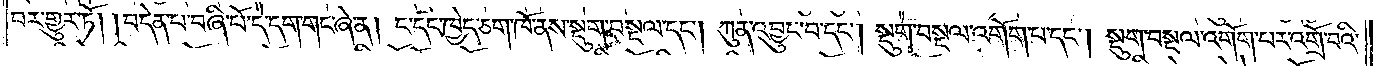བར་གྱུར་ཏོ། །བདེན་པ་བཞི་པོ་དེ་དག་གང་ཞེ་ན། ང་དང་ཁྱེད་ཅག་ཁོ་ནས་སྡུག་བསྔལ་དང༌། ཀུན་འབྱུང་བ་དང༌། སྡུག་བསྔལ་འགོག་པ་དང༌། སྡུག་བསྔལ་འགོག་པར་འགྲོ་བའི་
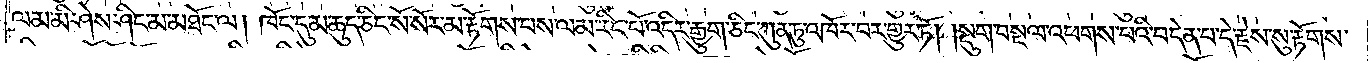ལམ་མི་ཤེས་ཤིང་མ་མཐོང་ལ། ཁོང་དུ་མ་ཆུད་ཅིང་སོ་སོར་མ་རྟོགས་པས་ལམ་རིང་པོ་འདིར་རྒྱུག་ཅིང་ཀུན་ཏུ་འཁོར་བར་གྱུར་ཏོ། །སྡུག་བསྔལ་འཕགས་པའི་བདེན་པ་དེ་རྗེས་སུ་རྟོགས་
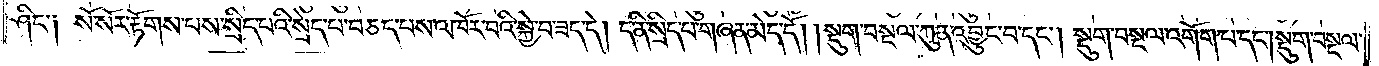ཤིང༌། སོ་སོར་རྟོགས་པས་སྲིད་པའི་སྲེད་པ་བཅད་པས་འཁོར་བའི་སྐྱེ་བ་ཟད་དེ། ད་ནི་སྲིད་པ་གཞན་མེད་དོ། །སྡུག་བསྔལ་ཀུན་འབྱུང་བ་དང༌། སྡུག་བསྔལ་འགོག་པ་དང༌། སྡུག་བསྔལ་
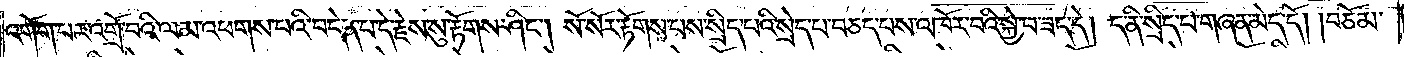འགོག་པར་འགྲོ་བའི་ལམ་འཕགས་པའི་བདེན་པ་དེ་རྗེས་སུ་རྟོགས་ཤིང༌། སོ་སོར་རྟོགས་པས་སྲིད་པའི་སྲེད་པ་བཅད་པས་འཁོར་བའི་སྐྱེ་བ་ཟད་དེ། ད་ནི་སྲིད་པ་གཞན་མེད་དོ། །བཅོམ་
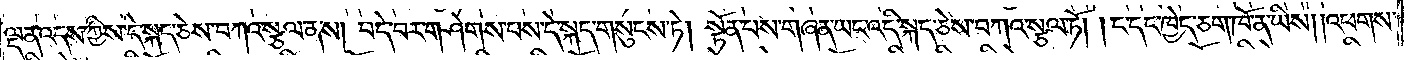ལྡན་འདས་ཀྱིས་དེ་སྐད་ཅེས་བཀའ་སྩལ་ནས། བདེ་བར་གཤེགས་པས་དེ་སྐད་གསུངས་ཏེ། སྟོན་པས་གཞན་ཡང་འདི་སྐད་ཅེས་བཀའ་སྩལ་ཏོ། །ང་དང་ཁྱེད་ཅག་ཁོ་ན་ཡིས། །འཕགས་
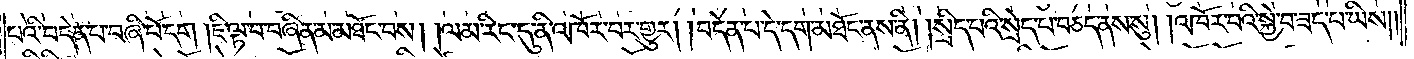པའི་བདེན་པ་བཞི་པོ་དག །ཇི་ལྟ་བ་བཞིན་མ་མཐོང་བས། །ལམ་རིང་དུ་ནི་འཁོར་བར་གྱུར། །བདེན་པ་དེ་དག་མཐོང་ནས་ནི། །སྲིད་པའི་སྲེད་པ་བཅད་ནས་སུ། །འཁོར་བའི་སྐྱེ་བ་ཟད་པ་ཡིས།
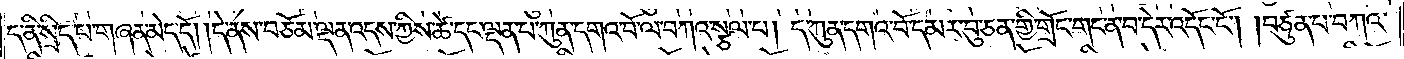ད་ནི་སྲིད་པ་གཞན་མེད་དོ། །དེ་ནས་བཅོམ་ལྡན་འདས་ཀྱིས་ཚེ་དང་ལྡན་པ་ཀུན་དགའ་བོ་ལ་བཀའ་སྩལ་པ། ད་ཀུན་དགའ་བོ་དམར་བུ་ཅན་གྱི་གྲོང་གང་ན་བ་དེར་འདོང་ངོ༌། །བཙུན་པ་བཀའ་
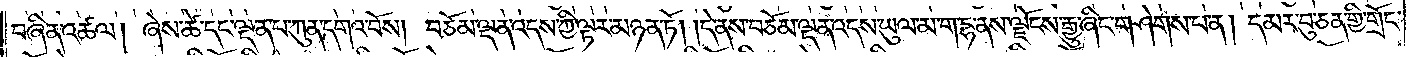བཞིན་འཚལ། །ཞེས་ཚེ་དང་ལྡན་པ་ཀུན་དགའ་བོས། བཅོམ་ལྡན་འདས་ཀྱི་ལྟར་མཉན་ཏོ། །དེ་ནས་བཅོམ་ལྡན་འདས་ཡུལ་མ་ག་དྷ་ནས་ལྗོངས་རྒྱུ་ཞིང་གཤེགས་པ་ན། དམར་བུ་ཅན་གྱི་གྲོང་
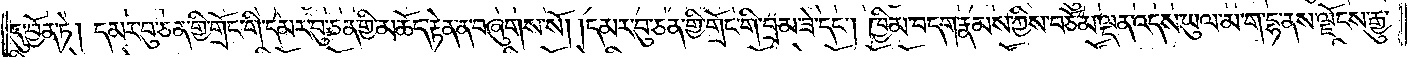དུ་བྱོན་ཏེ། དམར་བུ་ཅན་གྱི་གྲོང་གི་དམར་བུ་ཅན་གྱི་མཆོད་རྟེན་ན་བཞུགས་སོ། །དམར་བུ་ཅན་གྱི་གྲོང་གི་བྲམ་ཟེ་དང༌། ཁྱིམ་བདག་རྣམས་ཀྱིས་བཅོམ་ལྡན་འདས་ཡུལ་མ་ག་དྷ་ནས་ལྗོངས་རྒྱུ་
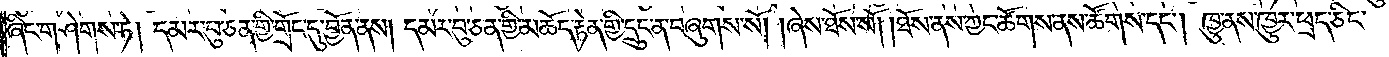ཞིང་གཤེགས་ཏེ། དམར་བུ་ཅན་གྱི་གྲོང་དུ་བྱོན་ནས། དམར་བུ་ཅན་གྱི་མཆོད་རྟེན་གྱི་དྲུང་ན་བཞུགས་སོ། །ཞེས་ཐོས་སོ། །ཐོས་ནས་ཀྱང་ཚོགས་ནས་ཚོགས་དང༌། ཁྱུ་ནས་ཁྱུར་ཕྲད་ཅིང་
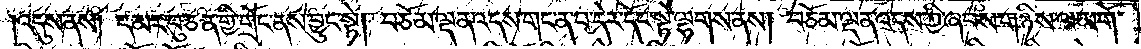འདུས་ནས། དམར་བུ་ཅན་གྱི་གྲོང་ནས་བྱུང་སྟེ། བཅོམ་ལྡན་འདས་གང་ན་བ་དེར་དོང་སྟེ་ལྷགས་ནས། བཅོམ་ལྡན་འདས་ཀྱི་ཞབས་གཉིས་ལ་མགོ་
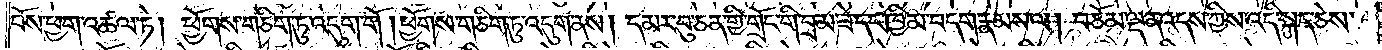བོས་ཕྱག་འཚལ་ཏེ། ཕྱོགས་གཅིག་ཏུ་འདུག་གོ །ཕྱོགས་གཅིག་ཏུ་འདུག་ནས། དམར་བུ་ཅན་གྱི་གྲོང་གི་བྲམ་ཟེ་དང་ཁྱིམ་བདག་རྣམས་ལ། བཅོམ་ལྡན་འདས་ཀྱིས་འདི་སྐད་ཅེས་
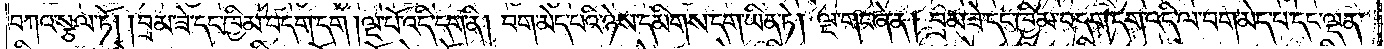བཀའ་སྩལ་ཏོ། །བྲམ་ཟེ་དང་ཁྱིམ་བདག་དག །ལྔ་པོ་འདི་དག་ནི། བག་མེད་པའི་ཉེས་དམིགས་དག་ཡིན་ཏེ། ལྔ་གང་ཞེ་ན། བྲམ་ཟེ་དང་ཁྱིམ་བདག་དག་འདི་ལ་བག་མེད་པ་དང་ལྡན་
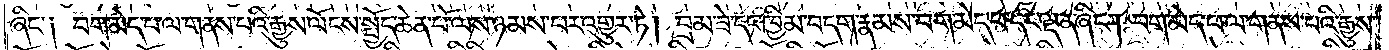ཞིང༌༑ བག་མེད་པ་ལ་གནས་པའི་རྒྱུས་ལོངས་སྤྱོད་ཆེན་པོ་ལས་ཉམས་པར་འགྱུར་ཏེ། བྲམ་ཟེ་དང་ཁྱིམ་བདག་རྣམས་བག་མེད་པ་དང་ལྡན་ཞིང༌། བག་མེད་པ་ལ་གནས་པའི་རྒྱུས་
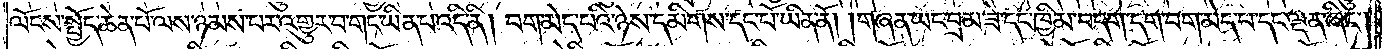ལོངས་སྤྱོད་ཆེན་པོ་ལས་ཉམས་པར་འགྱུར་བ་གང་ཡིན་པ་འདི་ནི། བག་མེད་པའི་ཉེས་དམིགས་དང་པོ་ཡིན་ནོ། །གཞན་ཡང་བྲམ་ཟེ་དང་ཁྱིམ་བདག་དག་བག་མེད་པ་དང་ལྡན་ཞིང༌།
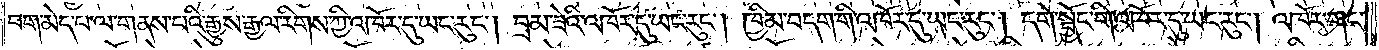བག་མེད་པ་ལ་གནས་པའི་རྒྱུས་རྒྱལ་རིགས་ཀྱི་འཁོར་དུ་ཡང་རུང༌། བྲམ་ཟེའི་འཁོར་དུ་ཡང་རུང༌། ཁྱིམ་བདག་གི་འཁོར་དུ་ཡང་རུང༌། དགེ་སྦྱོང་གི་འཁོར་དུ་ཡང་རུང༌། འཁོར་གང་
